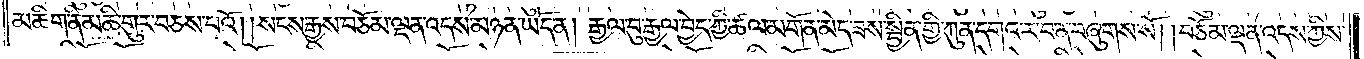མཆིག་ནི་མཆི་གུར་བཅས་པའོ། །སངས་རྒྱས་བཅོམ་ལྡན་འདས་མཉན་ཡོད་ན། རྒྱལ་བུ་རྒྱལ་བྱེད་ཀྱི་ཚལ་མགོན་མེད་ཟས་སྦྱིན་གྱི་ཀུན་དགའ་ར་བ་ན་བཞུགས་སོ། །བཅོམ་ལྡན་འདས་ཀྱིས་
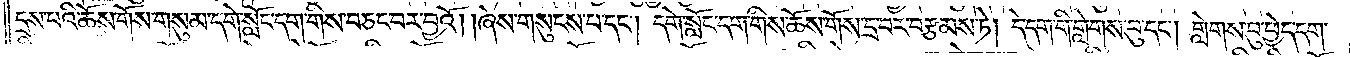དྲས་པའི་ཆོས་གོས་གསུམ་དགེ་སློང་དག་གིས་བཅང་བར་བྱའོ། །ཞེས་གསུངས་པ་དང༌། དགེ་སློང་དག་གིས་ཆོས་གོས་དྲ་བར་བརྩམས་ཏེ། དེ་དག་གི་གླེགས་བུ་དང༌། གླེགས་བུ་ཕྱེད་དག་
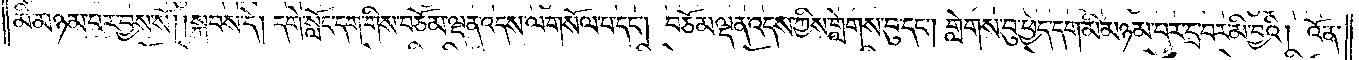མི་མཉམ་པར་བྱས་སོ། །སྐབས་དེ། དགེ་སློང་དག་གིས་བཅོམ་ལྡན་འདས་ལ་གསོལ་པ་དང༌། བཅོམ་ལྡན་འདས་ཀྱིས་གླེགས་བུ་དང༌། གླེགས་བུ་ཕྱེད་དག་མི་མཉམ་པར་དྲ་བར་མི་བྱའོ། འོན་
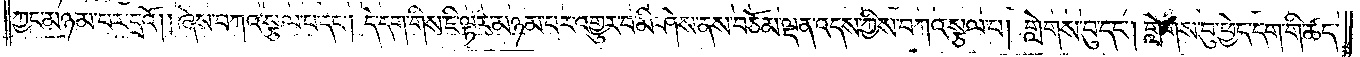ཀྱང་མཉམ་པར་དྲའོ། །ཞེས་བཀའ་སྩལ་པ་དང༌། དེ་དག་གིས་ཇི་ལྟར་མཉམ་པར་འགྱུར་བ་མི་ཤེས་ནས་བཅོམ་ལྡན་འདས་ཀྱིས་བཀའ་སྩལ་པ། གླེགས་བུ་དང༌། གླེགས་བུ་ཕྱེད་དག་གི་ཚད་
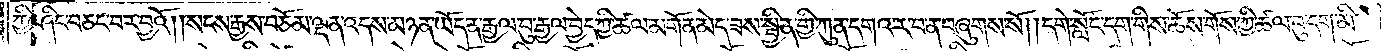ཀྱི་ཤིང་བཅང་བར་བྱའོ། །སངས་རྒྱས་བཅོམ་ལྡན་འདས་མཉན་ཡོད་ན་རྒྱལ་བུ་རྒྱལ་བྱེད་ཀྱི་ཚལ་མགོན་མེད་ཟས་སྦྱིན་གྱི་ཀུན་དགའ་ར་བ་ན་བཞུགས་སོ། །དགེ་སློང་དག་གིས་ཆོས་གོས་ཀྱི་ཚལ་བུ་དག་མི་
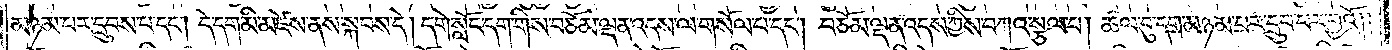མཉམ་པར་དྲུབས་པ་དང༌། དེ་དག་མི་མཛེས་ནས་སྐབས་དེ། དགེ་སློང་དག་གིས་བཅོམ་ལྡན་འདས་ལ་གསོལ་པ་དང༌། བཅོམ་ལྡན་འདས་ཀྱིས་བཀའ་སྩལ་པ། ཚལ་བུ་དག་མཉམ་པར་དྲུབ་པར་བྱའོ། །
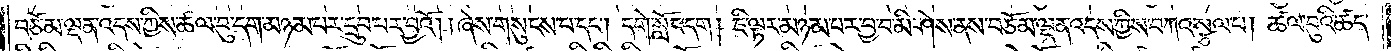བཅོམ་ལྡན་འདས་ཀྱིས་ཚལ་བུ་དག་མཉམ་པར་དྲུབ་པར་བྱའོ། །ཞེས་གསུངས་པ་དང༌། དགེ་སློང་དག། ཇི་ལྟར་མཉམ་པར་བྱ་བ་མི་ཤེས་ནས་བཅོམ་ལྡན་འདས་ཀྱིས་བཀའ་སྩལ་པ། ཚལ་བུའི་ཚད་
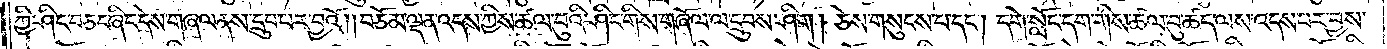ཀྱི་ཤིང་བཅང་ཞིང་དེས་གཞལ་ནས་དྲུབ་པར་བྱའོ། །བཅོམ་ལྡན་འདས་ཀྱིས་ཚལ་བུའི་ཤིང་གིས་གཞོལ་ལ་དྲུབས་ཤིག། ཅེས་གསུངས་པ་དང༌། དགེ་སློང་དག་གིས་ཚལ་བུ་ཚད་ལས་འདས་པར་བྱས་
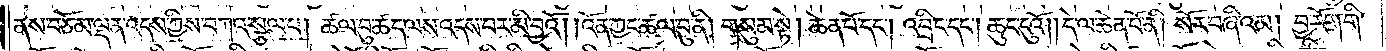ནས་བཅོམ་ལྡན་འདས་ཀྱིས་བཀའ་སྩལ་པ། ཚལ་བུ་ཚད་ལས་འདས་པར་མི་བྱའོ། །འོན་ཀྱང་ཚལ་བུ་ནི། གསུམ་སྟེ། ཆེན་པོ་དང༌། འབྲིང་དང༌། ཆུང་ངུའོ། །དེ་ལ་ཆེན་པོ་ནི། སོར་བཞིའམ། བྱ་རོག་གི་
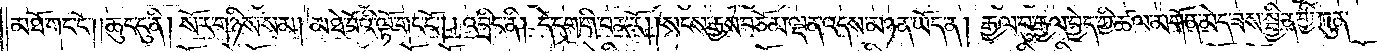མཐོ་གང་ངོ༌། །ཆུང་ངུ་ནི། སེར་གཉིས་སམ། མཐེ་བོའི་ལྟོ་གང་ངོ༌། །འབྲིང་ནི། དེ་དག་གི་བར་རོ། །སངས་རྒྱས་བཅོམ་ལྡན་འདས་མཉན་ཡོད་ན། རྒྱལ་བུ་རྒྱལ་བྱེད་ཀྱི་ཚལ་མགོན་མེད་ཟས་སྦྱིན་གྱི་ཀུན་
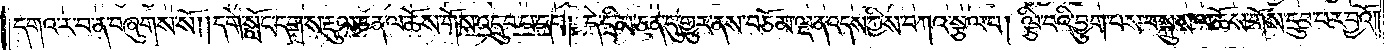དགའ་ར་བ་ན་བཞུགས་སོ། །དགེ་སློང་དག་ས་རྡུལ་ཅན་ལ་ཆོས་གོས་འདྲུབ་པ་དང༌། དེ་དྲི་མ་ཅན་དུ་གྱུར་ནས་བཅོམ་ལྡན་འདས་ཀྱིས་བཀའ་སྩལ་པ། ལྕི་བའི་བྱུག་པས་བསྐུས་ལ་ཆོས་གོས་དྲུབ་པར་བྱའོ༎
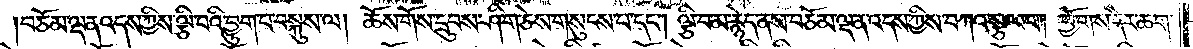བཅོམ་ལྡན་འདས་ཀྱིས་ལྕི་བའི་བྱུག་པ་བསྐུས་ལ། ཆོས་གོས་དྲུབས་ཤིག་ཅེས་གསུངས་པ་དང༌། ལྕི་བ་མ་རྙེད་ནས་བཅོམ་ལྡན་འདས་ཀྱིས་བཀའ་སྩལ་པ། ཕྱོགས་དེར་ཆག་
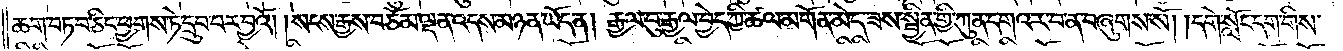ཆག་བཏབ་ཅིང་ཕྱགས་ཏེ་དྲུབ་པར་བྱའོ། །སངས་རྒྱས་བཅོམ་ལྡན་འདས་མཉན་ཡོད་ན། རྒྱལ་བུ་རྒྱལ་བྱེད་ཀྱི་ཚལ་མགོན་མེད་ཟས་སྦྱིན་གྱི་ཀུན་དགའ་ར་བ་ན་བཞུགས་སོ། །དགེ་སློང་དག་གིས་
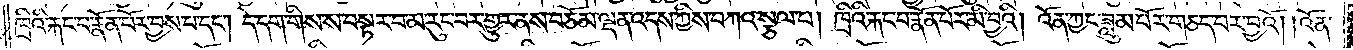ཁྲིའི་རྐང་པ་རྣོན་པོར་བྱས་པ་དང༌། དེ་དག་གིས་ས་བསྟར་བ་མ་རུང་བར་གྱུར་ནས་བཅོམ་ལྡན་འདས་ཀྱིས་བཀའ་སྩལ་པ། ཁྲིའི་རྐང་པ་རྣོན་པོར་མི་བྱའི། འོན་ཀྱང་ཟླུམ་པོར་གཅད་པར་བྱའོ། །འོན་
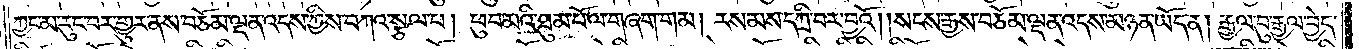ཀྱང་མ་རུང་བར་གྱུར་ནས་བཅོམ་ལྡན་འདས་ཀྱིས་བཀའ་སྩལ་པ། ཕུབ་མའི་ཐུམ་པོ་ལ་གཞག་གམ། རས་མས་དཀྲི་བར་བྱའོ། །སངས་རྒྱས་བཅོམ་ལྡན་འདས་མཉན་ཡོད་ན། རྒྱལ་བུ་རྒྱལ་བྱེད་
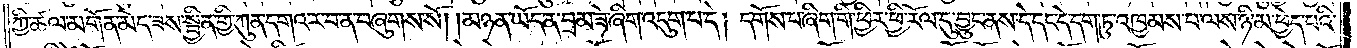ཀྱི་ཚལ་མགོན་མེད་ཟས་སྦྱིན་གྱི་ཀུན་དགའ་ར་བ་ན་བཞུགས་སོ། །མཉན་ཡོད་ན་བྲམ་ཟེ་ཞིག་འདུག་པ་དེ། དགོས་པ་ཞིག་གི་ཕྱིར་ཕྱི་རོལ་དུ་བྱུང་ནས་དེ་དང་དེ་དག་ཏུ་འཁྱམས་པ་ལས་ཉི་མ་ཕྱེད་པའི་
